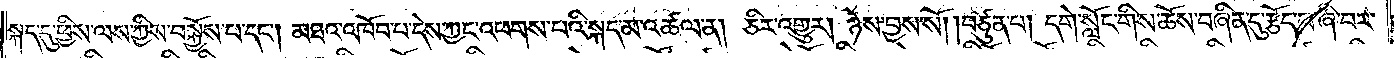སྐད་དུ་ཕྱིས་ལས་ཀྱིས་བསྐྱོས་པ་དང༌། མཐའ་འཁོབ་པ་དེས་ཀྱང་འཕགས་པའི་སྐད་མ་འཚལ་ན། ཅིར་འགྱུར། ཉེས་བྱས་སོ། །བཙུན་པ། དགེ་སློང་གིས་ཆོས་བཞིན་དུ་རྩོད་པ་ཞི་བར་
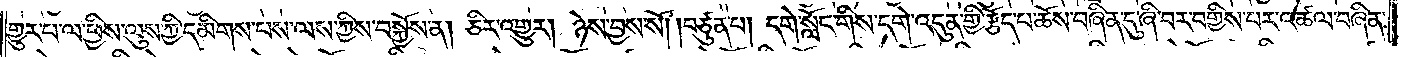གྱུར་པ་ལ་ཕྱིས་ལུས་ཀྱི་དམིགས་པས་ལས་ཀྱིས་བསྐྱོས་ན། ཅིར་འགྱུར། ཉེས་བྱས་སོ། །བཙུན་པ། དགེ་སློང་གིས་དགེ་འདུན་གྱི་རྩོད་པ་ཆོས་བཞིན་དུ་ཞི་བར་བགྱིས་པར་འཚལ་བཞིན་
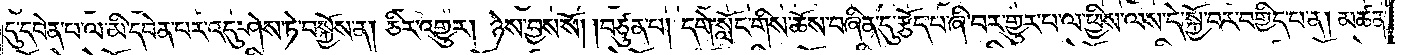དུ་དབེན་པ་ལ་མི་དབེན་པར་འདུ་ཤེས་ཏེ་བསྐྱོས་ན། ཅིར་འགྱུར། ཉེས་བྱས་སོ། །བཙུན་པ། དགེ་སློང་གིས་ཆོས་བཞིན་དུ་རྩོད་པ་ཞི་བར་གྱུར་པ་ལས་ཕྱིས་ལས་དེ་སྐྱོ་བར་བགྱིད་པ་ན། མཚན་
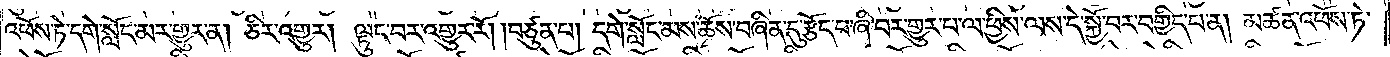འཕོས་ཏེ་དགེ་སློང་མར་གྱུར་ན། ཅིར་འགྱུར། ལྟུང་བར་འགྱུར་རོ། །བཙུན་པ། དགེ་སློང་མས་ཆོས་བཞིན་དུ་རྩོད་པ་ཞི་བར་གྱུར་པ་ལ་ཕྱིས་ལས་དེ་སྐྱོ་བར་བགྱིད་པ་ན། མཚན་འཕོས་ཏེ་
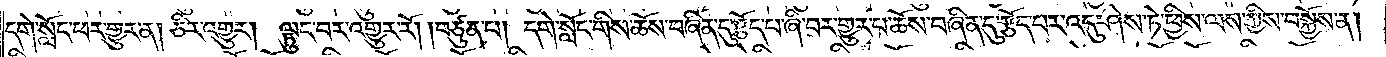དགེ་སློང་ཕར་གྱུར་ན། ཅིར་འགྱུར། ལྟུང་བར་འགྱུར་རོ། །བཙུན་པ། དགེ་སློང་གིས་ཆོས་བཞིན་དུ་རྩོད་པ་ཞི་བར་གྱུར་པ་ཆོས་བཞིན་དུ་རྩོད་པར་འདུ་ཤེས་ཏེ་ཕྱིས་ལས་ཀྱིས་བསྐྱོས་ན།
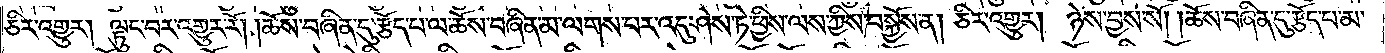ཅིར་འགྱུར། ལྟུང་བར་འགྱུར་རོ། །ཆོས་བཞིན་དུ་རྩོད་པ་ལ་ཆོས་བཞིན་མ་ལགས་པར་འདུ་ཤེས་ཏེ་ཕྱིས་ལས་ཀྱིས་བསྐྱོས་ན། ཅིར་འགྱུར། ཉེས་བྱས་སོ། །ཆོས་བཞིན་དུ་རྩོད་པ་མ་
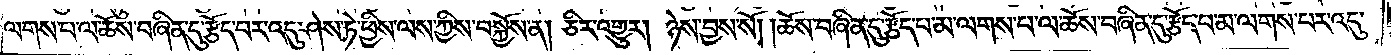ལགས་པ་ལ་ཆོས་བཞིན་དུ་རྩོད་པར་འདུ་ཤེས་ཏེ་ཕྱིས་ལས་ཀྱིས་བསྐྱོས་ན། ཅིར་འགྱུར། ཉེས་བྱས་སོ། །ཆོས་བཞིན་དུ་རྩོད་པ་མ་ལགས་པ་ལ་ཆོས་བཞིན་དུ་རྩོད་པ་མ་ལགས་པར་འདུ་
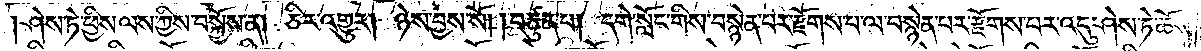ཤེས་ཏེ་ཕྱིས་ལས་ཀྱིས་བསྐྱོས་ན། ཅིར་འགྱུར། ཉེས་བྱས་སོ། །བཙུན་པ། དགེ་སློང་གིས་བསྙེན་པར་རྫོགས་པ་ལ་བསྙེན་པར་རྫོགས་པར་འདུ་ཤེས་ཏེ་ཆོས་
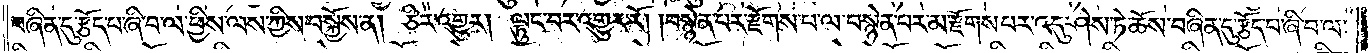བཞིན་དུ་རྩོད་པ་ཞི་བ་ལ་ཕྱིས་ལས་ཀྱིས་བསྐྱོས་ན། ཅིར་འགྱུར། ལྟུང་བར་འགྱུར་རོ། །བསྙེན་པར་རྫོགས་པ་ལ་བསྙེན་པར་མ་རྫོགས་པར་འདུ་ཤེས་ཏེ་ཆོས་བཞིན་དུ་རྩོད་པ་ཞི་བ་ལ་
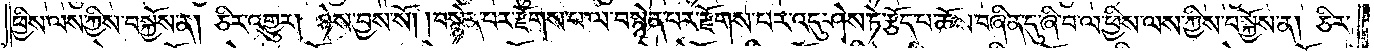ཕྱིས་ལས་ཀྱིས་བསྐྱོས་ན། ཅིར་འགྱུར། ཉེས་བྱས་སོ། །བསྙེན་པར་རྫོགས་པ་ལ་བསྙེན་པར་རྫོགས་པར་འདུ་ཤེས་ཏེ་རྩོད་པ་ཆོས་བཞིན་དུ་ཞི་བ་ལ་ཕྱིས་ལས་ཀྱིས་བསྐྱོས་ན། ཅིར་
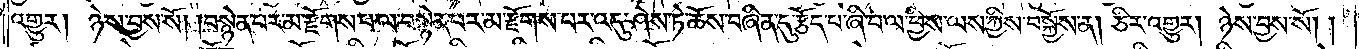འགྱུར། ཉེས་བྱས་སོ། །བསྙེན་པར་མ་རྫོགས་པ་ལ་བསྙེན་པར་མ་རྫོགས་པར་འདུ་ཤེས་ཏེ་ཆོས་བཞིན་དུ་རྩོད་པ་ཞི་བ་ལ་ཕྱིས་ལས་ཀྱིས་བསྐྱོས་ན། ཅིར་འགྱུར། ཉེས་བྱས་སོ། །
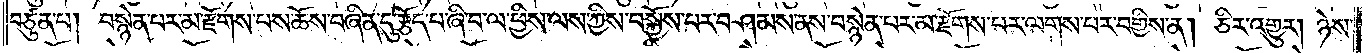བཙུན་པ། བསྙེན་པར་མ་རྫོགས་པས་ཆོས་བཞིན་དུ་རྩོད་པ་ཞི་བ་ལ་ཕྱིས་ལས་ཀྱིས་བསྐྱོས་པར་བཤམས་ནས་བསྙེན་པར་མ་རྫོགས་པར་ལགས་པར་བགྱིས་ན། ཅིར་འགྱུར། ཉེས་
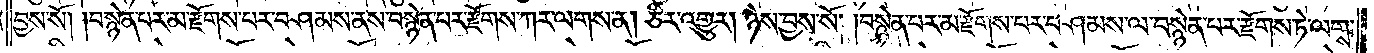བྱས་སོ། །བསྙེན་པར་མ་རྫོགས་པར་བཤམས་ནས་བསྙེན་པར་རྫོགས་ཀར་ལགས་ན། ཅིར་འགྱུར། ཉེས་བྱས་སོ། །བསྙེན་པར་མ་རྫོགས་པར་བཤམས་ལ་བསྙེན་པར་རྫོགས་ཏེ་ལགས་
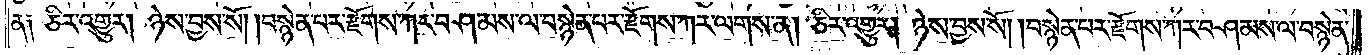ན༑ ཅིར་འགྱུར། ཉེས་བྱས་སོ། །བསྙེན་པར་རྫོགས་ཀར་བཤམས་ལ་བསྙེན་པར་རྫོགས་ཀར་ལགས་ན། ཅིར་འགྱུར། ཉེས་བྱས་སོ། །བསྙེན་པར་རྫོགས་ཀར་བཤམས་ལ་བསྙེན་
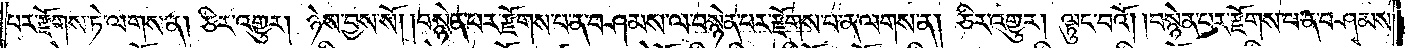པར་རྫོགས་ཏེ་ལགས་ན། ཅིར་འགྱུར། ཉེས་བྱས་སོ། །བསྙེན་པར་རྫོགས་པ་ན་བཤམས་ལ་བསྙེན་པར་རྫོགས་པ་ན་ལགས་ན། ཅིར་འགྱུར། ལྟུང་བའོ། །བསྙེན་པར་རྫོགས་པ་ན་བཤམས་
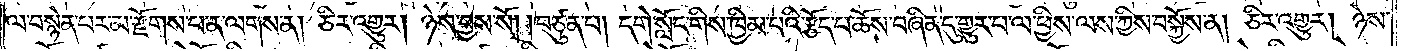ལ་བསྙེན་པར་མ་རྫོགས་པ་ན་ལགས་ན། ཅིར་འགྱུར། ཉེས་བྱས་སོ། །བཙུན་པ། དགེ་སློང་གིས་ཁྱིམ་པའི་རྩོད་པ་ཆོས་བཞིན་དུ་གྱུར་པ་ལ་ཕྱིས་ལས་ཀྱིས་བསྐྱོས་ན། ཅིར་འགྱུར། ཉེས་
